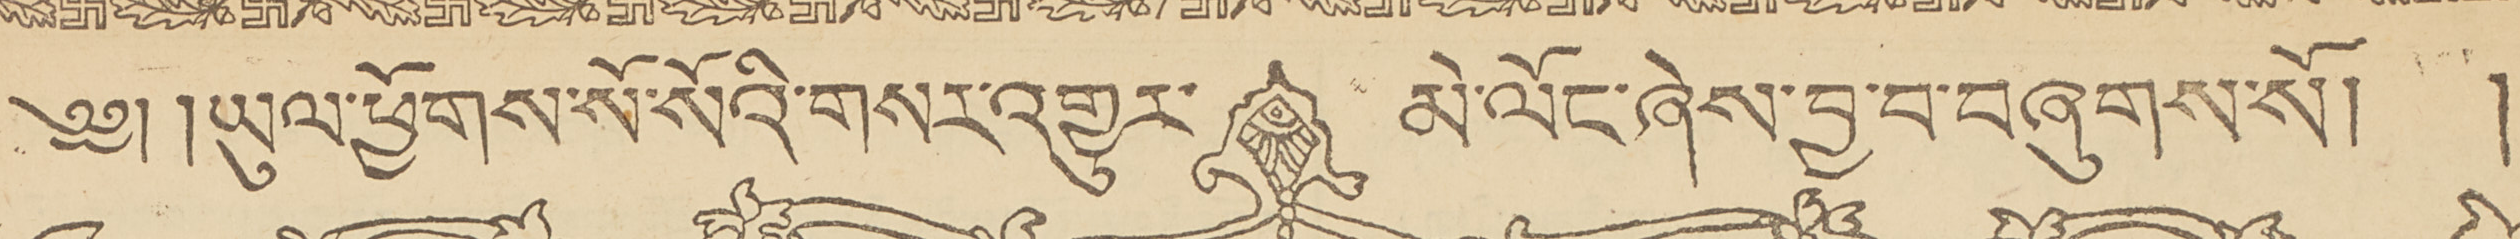༄༅། །ཡུལ་ཕྱོགས་སོ་སོའི་གསར་འགྱུར་ མེ་ལོང་ཞེས་བྱ་བ་བཞུགས་སོ། །
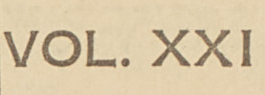VOL. XXI
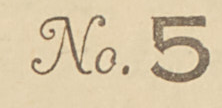No. 5
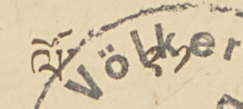ལོ་ ༢༡
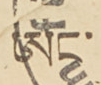ཨང་ ༥
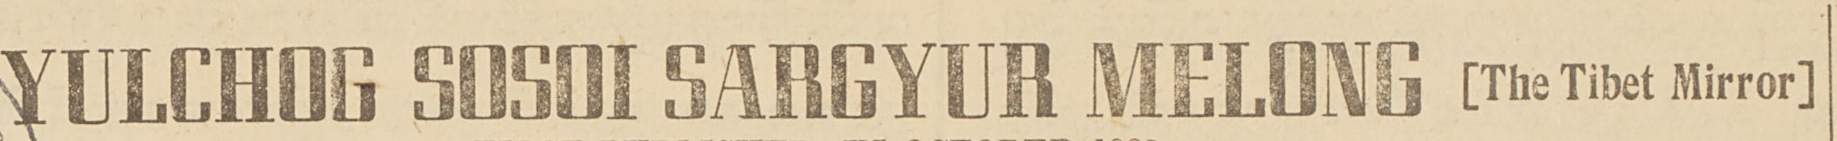YOLCHOG SOSOI SARGYUR MELONG. [The Tibet Mirror]
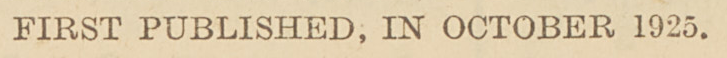FIRST PUBLISHED, IN OCTOBER 1925.
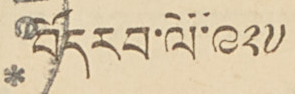བོད་རབ་ལོ་༩༢༧
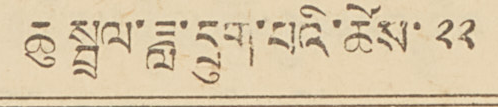ཆུ་སྤྲལ་ཟླ་དྲུག་པའི་ཚེས་ ༢༢
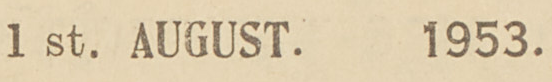1st AUGUEST. 1953.
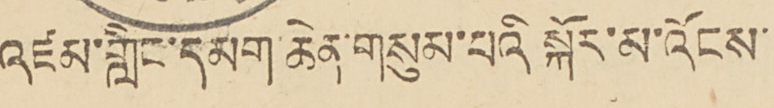འཛམ་གླིང་དམག་ཆེན་གསུམ་པའི སྐོར་མ་འོངས་
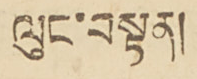ལུང་བསྟན།
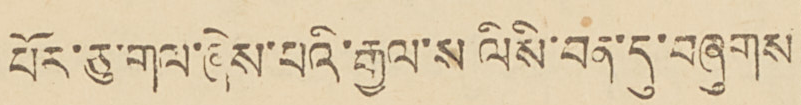པོར་ཅུ་གལ་ཞེས་པའི་རྒྱལ་ས ལིསི་བན་དུ་བཞུགས
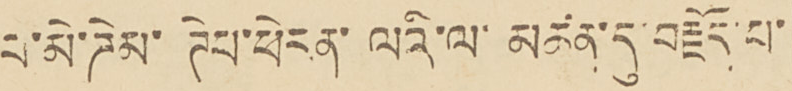པ་མེ་ཌེམ་ཊེཔ་ཕེརན་ལའི་ལ་མཚན་དུ་བརྗོད་པ་
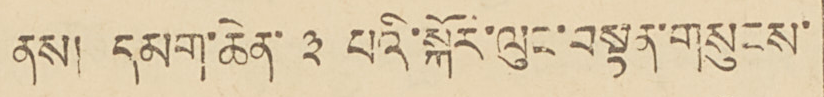ནས། དམག་ཆེན་ ༣ པའི་སྐོར་ལུང་བསྟན་གསུངས་
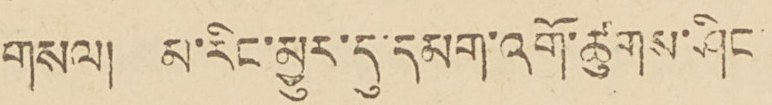གསལ། མ་རིང་མྱུར་དུ་དམག་འགོ་ཚུགས་ཤིང་
